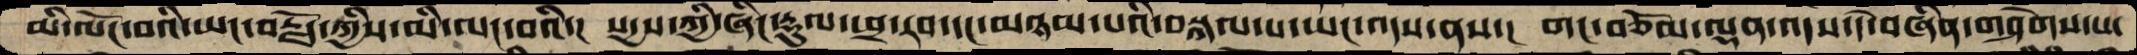མི་ལོང་བའི་ཡང་བརྗོད་ཀྱིས་མི་ལང་བའི་།  སདྱས་ཀྱི་ཞིང་རྡུལ་ཕྲ་རབ་དང་མཉམ་པའི་བསྐལ་པ་ཡང་འདས་ནས་།  གང་བཅོམ་ལྡན་འདས་དེ་བཞིན་གཤེགས་པ་
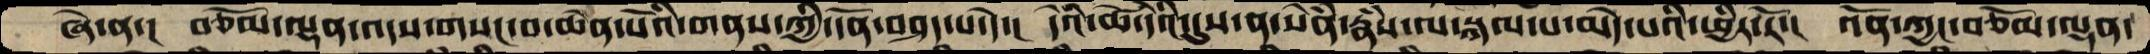ཞེ་ན་།  བཅོམ་ལྡན་འདས་གསང་བ་ཆེན་པོའི་གནས་ཀྱི་དོན་བཤད་པ་དེ་།  དེའི་ཚེ་དེའི་དུས་ན་སེཾན་རྣཾས་ལ་སྐལ་པ་མེད་པའི་ཕྱིར་རོ་།  འོན་ཀྱང་བཅོམ་ལྡན་
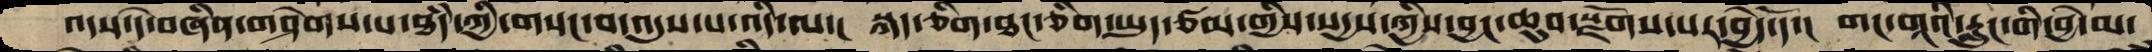འདས་དེ་བཞིན་གཤེགས་པ་ཐདཾ་ཀྱི་གསང་བ་འདུས་པ་འདི་ལ་།  སྐད་ཅིག་ཐང་ཅིག་ཡུད་ཙམ་གྱིས་སདྱས་ཀྱིས་བྱང་ཆུབ་སྫོགས་པར་བྱེད་དོ་།  གང་གཱའི་རླུང་གི་བྱེ་མ་
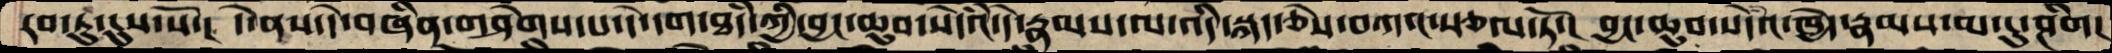རབ་ཏུ་དུས་སོ་།  དེ་ནས་དེ་བཞིན་གཤེགས་པ་དེ་དག་ཐདཾ་ཀྱི་བྱང་ཆུབ་སེདཾའ་དེ་རྣམས་ལ་འདི་སྐད་ཅེས་བཀའ་སྩལ་ཏོ་།  བྱང་ཆུབ་སེདཾའ་ཁྱེད་རྣམས་མ་ངུ་ཤིག།
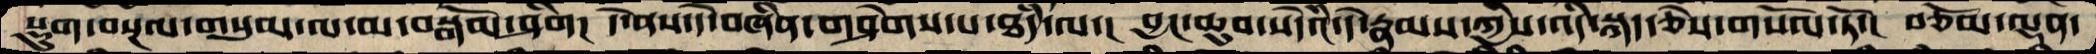སྡུག་བསྔལ་གསུམ་ལ་མ་བསྒོམ་ཤིག།  དེ་ནས་དེ་བཞིན་གཤེགས་པ་ཐདཾ་ལ་།  བྱང་ཆུབ་སེདཾའ་དེ་རྣམས་ཀྱིས་འདི་སྐད་ཅེས་གསོལ་ཏོ་།  བཅོམ་ལྡན་
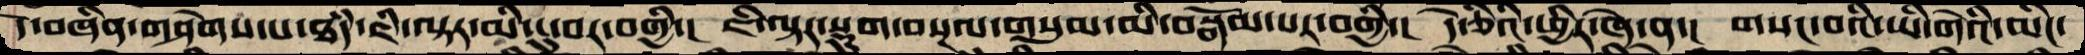དེ་བཞིན་གཤེགས་པ་ཐདཾ་ཇི་ལྟར་མི་ངུ་བར་བགྱི་།  ཇི་ལྟར་སྡུག་བསྔལ་གསུམ་མི་བསྒོམ་པར་བགྱི་།  དེ་ཅིའི་ཕྱིར་ཞེ་ན་།  གསང་བའི་ཡི་གེའི་མིང་
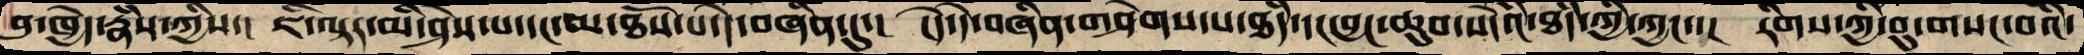བུ་ཁྱེད་རྣཾས་ཀྱིས་།  ཇི་ལྟར་མི་ཤེས་པ་དང་མ་ཐོས་པ་དེ་བཞིན་དུ་།  ངདེ་དེ་བཞིན་གཤེགས་པ་ཐཾད་དང་བྱང་ཆུབ་སེདའཾ་ཐཾད་ཀྱི་ཀྱང་་།  རིགས་ཀྱི་བུ་གསང་བའི་
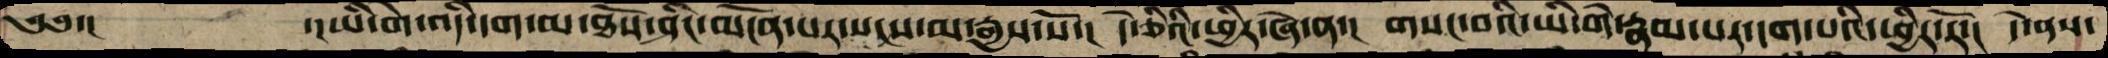༄༅་།        ་།ཡི་གེ་འདི་དག་མ་ཐོས་ཤིང་མངོན་པར་སངས་མ་རྒྱས་སོ་།   དེ་ཅིའི་ཕྱིར་ཞེ་ན་།  གསང་བའི་ཡི་གེ་རྣམ་པར་དག་པའི་ཕྱིར་རོ་།  དེ་ནས་
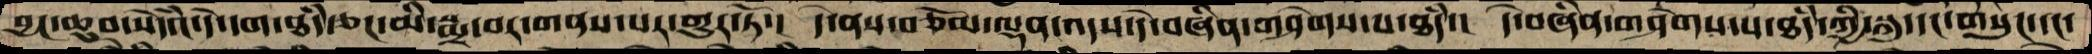བྱང་ཆུབ་སེདཾའ་དེ་དག་ཐཾད་ཅང་མི་སྨྲ་བར་གནས་པར་གྱུར་ཏོ་།  དེ་ནས་བཅོམ་ལྡན་འདས་དེ་བཞིན་གཤེགས་པ་ཐཾད་།  དེ་བཞིན་གཤེགས་པ་ཐཾད་ཀྱི་སྐུ་དང་གསུང་དང་
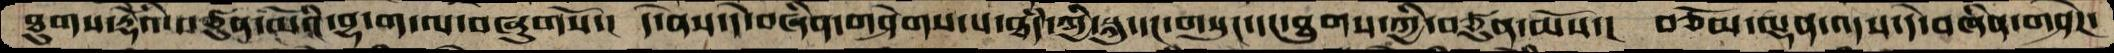ཐུགས་རྡོེའི་བཙུན་མོའི་བྷ་ག་ལ་བཞུགསོ་།  དེ་ནས་དེ་བཞིན་གཤེགས་པ་ཐཾད་ཀྱི་སྐུ་དང་གསུང་དང་ཐུགས་ཀྱི་བཙུན་མོས་།  བཅོམ་ལྡན་འདས་དེ་བཞིན་གཤེཌ་
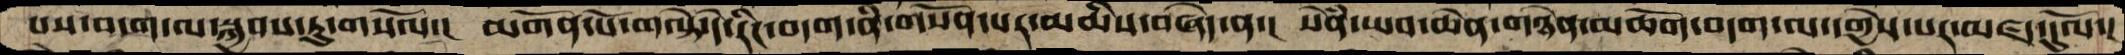པས་བདག་ལ་སྐྱབས་ཏུ་གསོལ་།  མགོན་པོ་གལྟེ་དེ་རིང་བདག་ནི་གསོན་པར་མཆིས་བཞེད་ན་།  སེཾན་ཡབ་ཆེན་གཉེན་མཆོག་བདག་ལ་དགྱེས་པར་མཛད་དུལོ་།
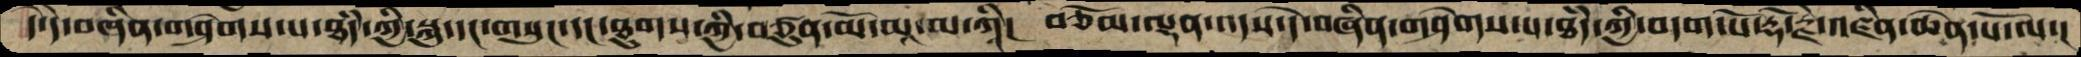དེ་དེ་བཞིན་གཤེགས་པ་ཐདཾ་ཀྱི་སྐུ་དང་གསུང་དང་ཐུགས་ཀྱི་བཙུན་མོ་མཱ་མ་ཀཱི།  བཅོམ་ལྡན་འདས་དེ་བཞིན་གཤེགས་པ་ཐདཾ་ཀྱི་བདག་པོ་རྡོ་རྗེ་འཛིན་ཆེན་པོ་ལ་།
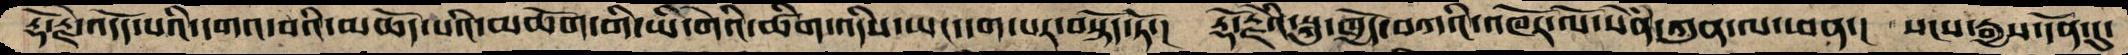རྡོ་རྗེ་འདོད་པའི་དགའ་བའི་མཆོད་པའི་མཆོག་གི་ཡི་གེའི་ཚིག་འདིས་ཡང་དག་པར་བསྟོད་ཏོ་།  རྡོ་རྗེའི་སྐུ་ཁྱོད་བཀའི་འཁོར་ལོ་སེཾན་ཀུན་ལ་ཕན་།  སངས་རྒྱས་དོན་དུ་
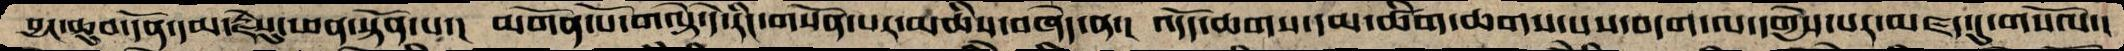བྱང་ཆུབ་དོན་དམ་རྗེསུ་ཕན་སྟོན་པ་།  མགོན་པོ་གལྟེ་དེ་རིང་གསོན་པར་མཆིས་བཞེད་ན་།  འདོད་ཆགས་དམ་ཚིག་ཆགས་པས་བདག་ལ་དགྱེས་པར་མཛད་དུ་གསོལ་།
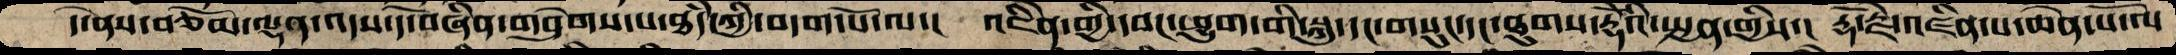དེ་ནས་བཅོམ་ལྡན་འདས་དེ་བཞིན་གཤེགས་པ་ཐཾད་ཀྱི་བདག་པོ་ལ་།  འཇིནེ་གྱི་དབང་ཕྱུག་གི་སྐུ་དང་གསུང་དང་ཐུགས་རྡོེའི་སྤྱན་གྱིས་།  རྡོ་རྗེ་འཛིན་པ་ཆེན་པོ་ལ
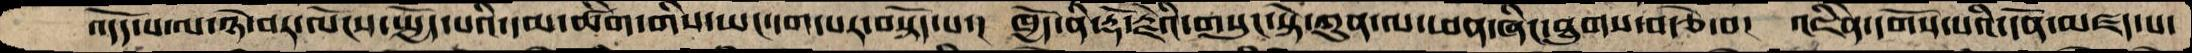འདོད་པ་ལ་ཉེ་བར་ལོངས་སྤྱོད་པའི་དམ་ཚིག་གིས་ཡང་དག་པར་བསྟོད་པ་།   ཁྱོད་ནི་རྡོ་རྗེའི་གསུང་སྟེ་ཀུན་ལ་ཕན་ཞིང་ཐུགས་བརྩེ་བ།   འཇིནེ་དགོས་པའི་དོན་མཛད་པ་
